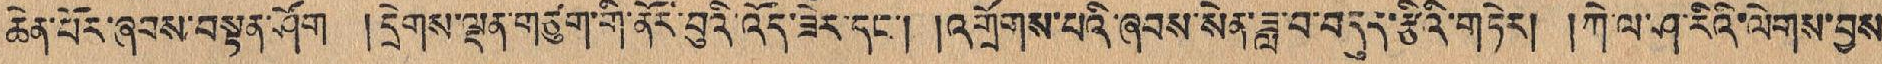ཆེན་པོར་ཞབས་བསྟན་ཤོག །དྲེགས་ལྡན་གཙུག་གི་ནོར་བུའི་འོད་ཟེར་དང་། །འགྲོགས་པའི་ཞབས་སེར་ཟླ་བ་བདུད་རྩེའི་གཏེར། །ཀེ་ལ་ཤ་རིའི་ལེགས་བྱས་
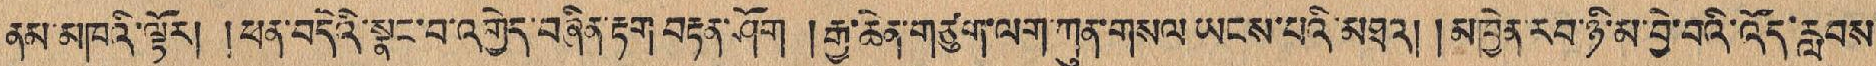ནམ་མཁའི་ལྟོར། །ཕན་བདེའི་སྣང་བ་འགྱེད་བཞིན་རྟག་བརྟན་ཤོག །རྒྱ་ཆེན་གཙུག་ལག་ཀུན་གསལ་ཡངས་པའི་མཐའ། །མཁྱེན་རབ་ཉི་མ་བྱེ་བའི་འོད་རླབས་
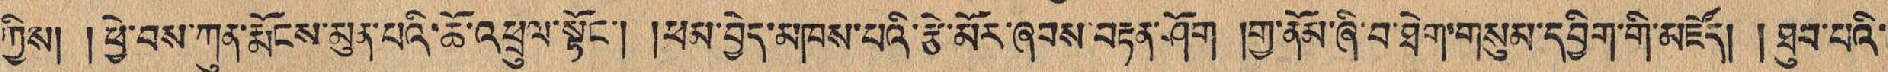ཀྱིས། །ཕྱེ་བས་ཀུན་རྨོངས་མུན་པའི་ཆོ་འཕྲུལ་སྟོང་། །ཕམ་བྱེད་མཁས་པའི་རྩེ་མོར་ཞབས་བརྟག་ཤོག །གྱ་ནོམ་ཞི་བ་ཐེག་གསུམ་དབྱིག་གི་མཛོད། །ཐུབ་པའི་
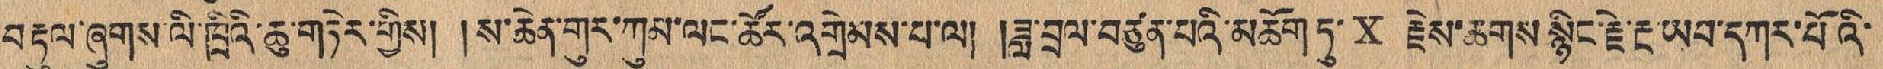བརྟུལ་ཞུགས་ལི་ཁྲིའི་ཆུ་གཏེར་གྱིས། །ས་ཆེན་གུར་ཀུམ་ལང་ཚོར་འགྲེམས་པ་ལ། །ཟླ་བྲལ་བཙུན་པའི་མཆོག་ཏུ་ X རྗེས་ཆགས་སྙིང་རྗེ་རྔ་ཡབ་དཀར་པོའི་
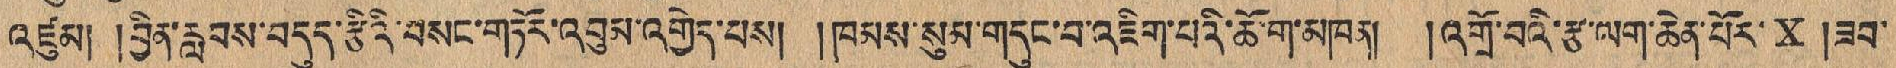འཛུམ། །བྱིན་རླབས་བདུད་རྩིའི་བསང་གཏོར་འབུམ་འགྱེད་པས། །ཁམས་སུས་གདུང་བ་འཇིག་པའི་ཆོ་ག་མཁན། །འགྲོ་བའི་རྩ་ལག་ཆེན་པོར་X །ཟབ་
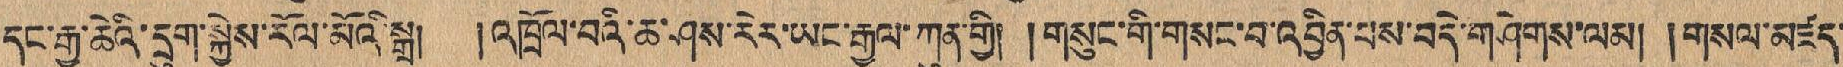དང་རྒྱ་ཆེའི་དྲུག་སྐྱེས་རོལ་མོའི་སྒྲ། །འཁྲོལ་བའི་ཆ་ཤས་རེར་ཡང་རྒྱལ་ཀུན་གྱི། །གསུང་གི་གསང་བ་འབྱིན་པས་བདེ་གཤེགས་ལས། །གསལ་མཛད་
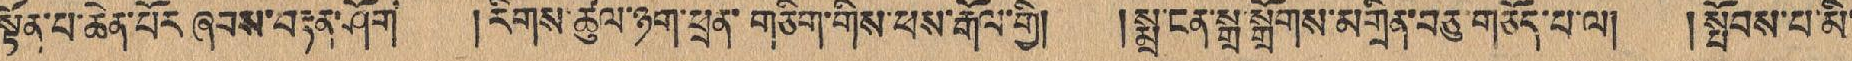སྟོན་པ་ཆེན་པོར་ཞབས་བརྟན་ཤོག །རིགས་ཚུལ་ཉག་ཕྲན་གཅིག་གིས་ཕས་རྒོས་གྱི། །སྨྲ་ངན་སྒྲ་སྒྲོགས་མགྲོན་བཅུ་གཅོད་པ་ལ། །སྤོབས་པ་མི་
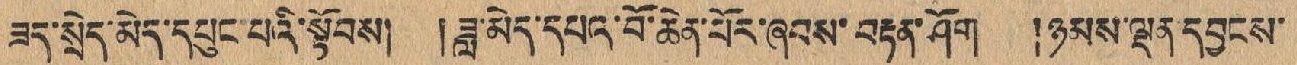ཟད་སྲེད་མེད་དཔུང་པའི་སྟོབས། །ཟླ་མེད་དཔའ་བོ་ཆེན་པོར་ཞབས་བརྟན་ཤོག །ཉམས་ལྡན་དབྱངས་
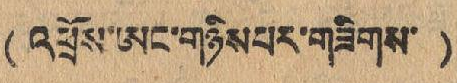(འཕྲོས་ཨང་གཉིས་པར་གཟིགས་)
